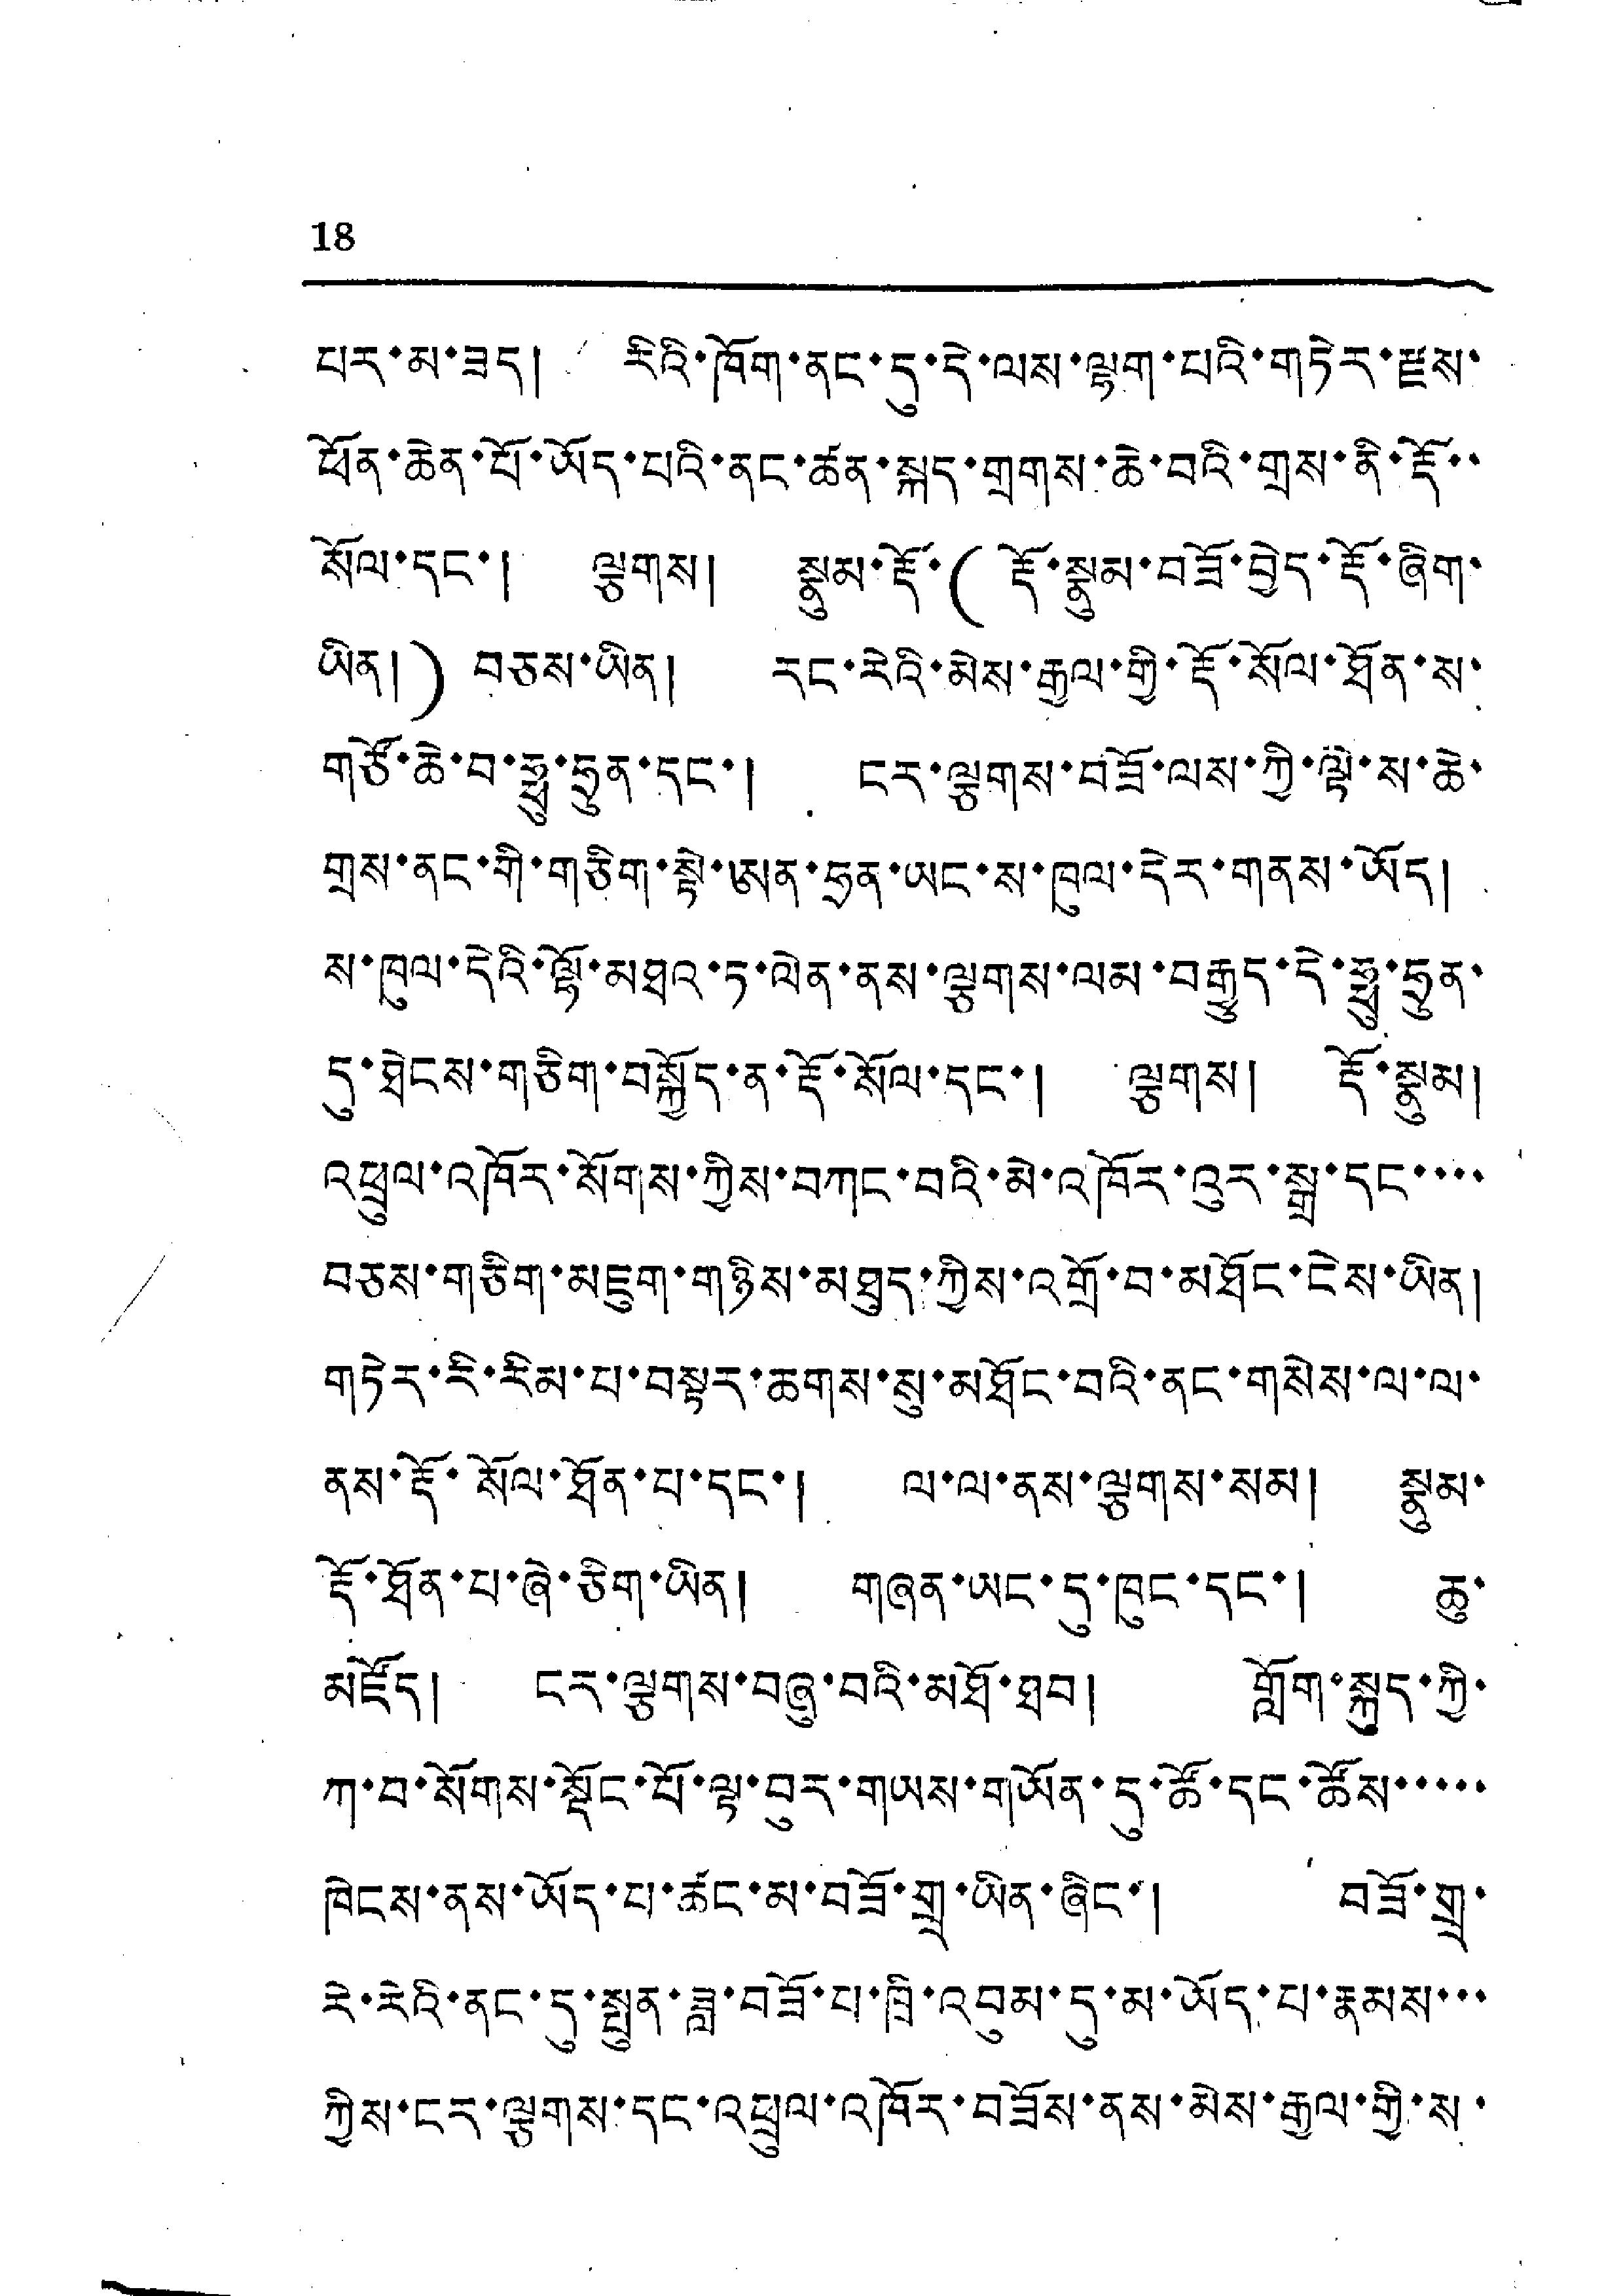18
པར་མ་ཟད། རིའི་ཁོག་ནང་དུ་དེ་ལས་ལྷག་པའི་གཏེར་རྫས་
ཕོན་ཆེན་པོ་ཡོད་པའི་ནང་ཚན་སྐད་གྲགས་ཆེ་བའི་གྲས་ནི་རྡོ་་
སོལ་དང་། ལྕགས། སྣམ་རྡོ་(རྡོ་སྣུམ་བཟོ་བྱེད་རྡོ་ཞིག་
ཡིན།) བཅས་ཡིན། རང་རེའི་མེས་རྒྱལ་གྱི་རྡོ་སོལ་ཐོན་ས་
གཙོ་ཆེ་བ་ཧྥུ་ཧྲུན་དང་། ངར་ལྕགས་བཟོ་ལས་ཀྱི་ལྟེ་ས་ཆེ་
གྲས་ནང་གི་གཅིག་སྟེ་ཨན་ཧྲན་ཡང་ས་ཁུལ་དེར་གནས་ཡོད།
ས་ཁུལ་དེའི་ལྷོ་མཐའ་ཏུ་ལེན་ནས་ལྕགས་ལམ་བརྒྱུད་དེ་ཧྥུ་ཧྲུན་
དུ་ཐེངས་གཅིག་བསྐྱོད་ན་རྡོ་སོལ་དང་། ལྕགས། རྡོ་སྣུམ།
འཕྲུལ་འཁོར་སོགས་ཀྱིས་བཀང་བའི་མེ་འཁོར་འུར་སྒྲ་དང་་་་
བཅས་གཅིག་མཇུག་གཉིས་མཐུད་ཀྱིས་འགྲོ་བ་མཐོང་ངེས་ཡིན།
གཏེར་རི་རིམ་པ་བསྟར་ཆགས་སུ་མཐོང་བའི་ནང་གསེས་ལ་ལ་
ནས་རྡོ་སོལ་ཐོན་པ་དང་། ལ་ལ་ནས་ལྕགས་སམ། སྣུམ་
རྡོ་ཐོན་པ་ཞེ་ཅིག་ཡིན། གཞན་ཡང་དུ་ཁུང་དང་། ཆུ་
མཛོད། ངར་ལྕགས་བཞུ་བའི་མཐོ་ཐབ། གློག་སྐུད་ཀྱི་
ཀ་བ་སོགས་སྡོང་པོ་ལྟ་བུར་གཡས་གཡོན་དུ་ཚོ་དང་ཚོས་་་་་
ཁེངས་ནས་ཡོད་པ་ཚང་མ་བཟོ་གྲྭ་ཡིན་ཞིང་། བཟོ་གྲྭ་
རེ་རེའི་ནང་དུ་སྤུན་ཟླ་བཟོ་པ་ཁྲི་འབུམ་དུ་མ་ཡོད་པ་རྣམས་་་
ཀྱིས་ངར་ལྕགས་དང་འཕྲུལ་འཁོར་བཟོས་ནས་མེས་རྒྱལ་གྱི་ས་
